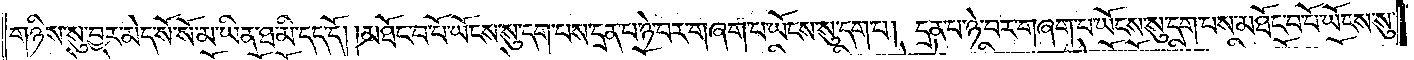གཉིས་སུ་བྱར་མེད་སོ་སོ་མ་ཡིན་ཐ་མི་དད་དོ། །མཐོང་བ་པོ་ཡོངས་སུ་དག་པས་དྲན་པ་ཉེ་བར་གཞག་པ་ཡོངས་སུ་དག་པ། དྲན་པ་ཉེ་བར་གཞག་པ་ཡོངས་སུ་དག་པས་མཐོང་བ་པོ་ཡོངས་སུ་
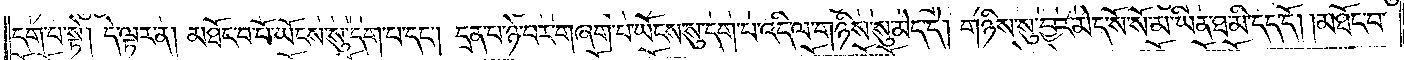དག་པ་སྟེ། དེ་ལྟར་ན། མཐོང་བ་པོ་ཡོངས་སུ་དག་པ་དང༌། དྲན་པ་ཉེ་བར་གཞག་པ་ཡོངས་སུ་དག་པ་འདི་ལ་གཉིས་སུ་མེད་དེ། གཉིས་སུ་བྱར་མེད་སོ་སོ་མ་ཡིན་ཐ་མི་དད་དོ། །མཐོང་བ་
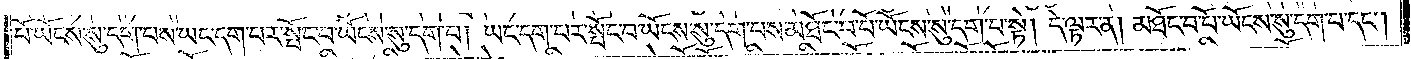པོ་ཡོངས་སུ་དག་པས་ཡང་དག་པར་སྤོང་བ་ཡོངས་སུ་དག་པ། ཡང་དག་པར་སྤོང་བ་ཡོངས་སུ་དག་པས་མཐོང་བ་པོ་ཡོངས་སུ་དག་པ་སྟེ། དེ་ལྟར་ན། མཐོང་བ་པོ་ཡོངས་སུ་དག་པ་དང༌།
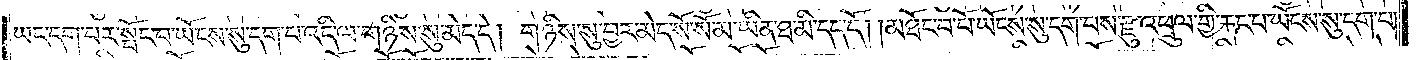ཡང་དག་པར་སྤོང་བ་ཡོངས་སུ་དག་པ་འདི་ལ་གཉིས་སུ་མེད་དེ། གཉིས་སུ་བྱར་མེད་སོ་སོ་མ་ཡིན་ཐ་མི་དད་དོ། །མཐོང་བ་པོ་ཡོངས་སུ་དག་པས་རྫུ་འཕྲུལ་གྱི་རྐང་པ་ཡོངས་སུ་དག་པ།
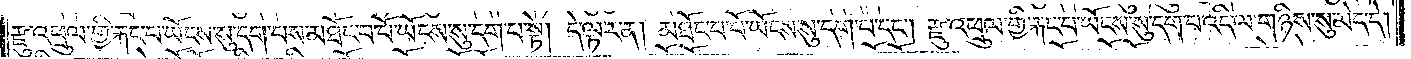རྫུ་འཕྲུལ་གྱི་རྐང་པ་ཡོངས་སུ་དག་པས་མཐོང་བ་པོ་ཡོངས་སུ་དག་པ་སྟེ། དེ་ལྟར་ན། མཐོང་བ་པོ་ཡོངས་སུ་དག་པ་དང༌། རྫུ་འཕྲུལ་གྱི་རྐང་པ་ཡོངས་སུ་དག་པ་འདི་ལ་གཉིས་སུ་མེད་དེ།
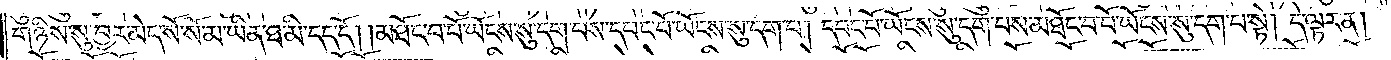གཉིས་སུ་བྱར་མེད་སོ་སོ་མ་ཡིན་ཐ་མི་དད་དོ། །མཐོང་བ་པོ་ཡོངས་སུ་དག་པས་དབང་པོ་ཡོངས་སུ་དག་པ། དབང་པོ་ཡོངས་སུ་དག་པས་མཐོང་བ་པོ་ཡོངས་སུ་དག་པ་སྟེ། དེ་ལྟར་ན།
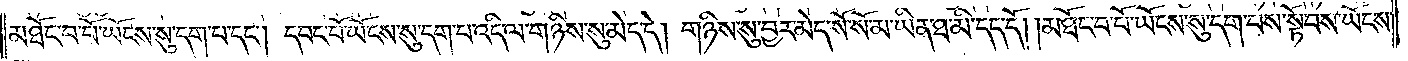མཐོང་བ་པོ་ཡོངས་སུ་དག་པ་དང༌། དབང་པོ་ཡོངས་སུ་དག་པ་འདི་ལ་གཉིས་སུ་མེད་དེ། གཉིས་སུ་བྱར་མེད་སོ་སོ་མ་ཡིན་ཐ་མི་དད་དོ། །མཐོང་བ་པོ་ཡོངས་སུ་དག་པས་སྟོབས་ཡོངས་
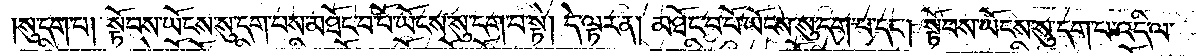སུ་དག་པ། སྟོབས་ཡོངས་སུ་དག་པས་མཐོང་བ་པོ་ཡོངས་སུ་དག་པ་སྟེ། དེ་ལྟར་ན། མཐོང་བ་པོ་ཡོངས་སུ་དག་པ་དང༌། སྟོབས་ཡོངས་སུ་དག་པ་འདི་ལ་
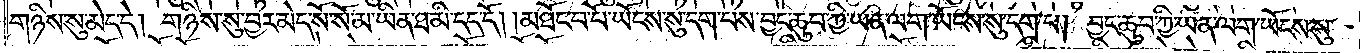གཉིས་སུ་མེད་དེ། གཉིས་སུ་བྱར་མེད་སོ་སོ་མ་ཡིན་ཐ་མི་དད་དོ། །མཐོང་བ་པོ་ཡོངས་སུ་དག་པས་བྱང་ཆུབ་ཀྱི་ཡན་ལག་ཡོངས་སུ་དག་པ། བྱང་ཆུབ་ཀྱི་ཡན་ལག་ཡོངས་སུ་
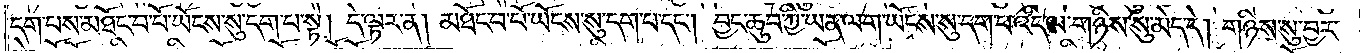དག་པས་མཐོང་བ་པོ་ཡོངས་སུ་དག་པ་སྟེ། དེ་ལྟར་ན། མཐོང་བ་པོ་ཡོང་སུ་དག་པ་དང༌། བྱང་ཆུབ་ཀྱི་ཡན་ལག་ཡོངས་སུ་དག་པ་འདི་ལ་གཉིས་སུ་མེད་དེ། གཉིས་སུ་བྱར་
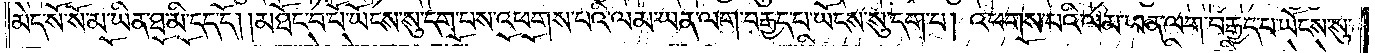མེད་སོ་སོ་མ་ཡིན་ཐ་མི་དད་དོ། །མཐོང་བ་པོ་ཡོངས་སུ་དག་པས་འཕགས་པའི་ལམ་ཡན་ལག་བརྒྱད་པ་ཡོངས་སུ་དག་པ། འཕགས་པའི་ལམ་ཡན་ལག་བརྒྱད་པ་ཡོངས་སུ་
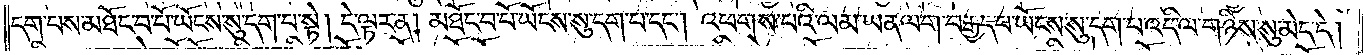དག་པས་མཐོང་བ་པོ་ཡོངས་སུ་དག་པ་སྟེ། དེ་ལྟར་ན། མཐོང་བ་པོ་ཡོངས་སུ་དག་པ་དང༌། འཕགས་པའི་ལམ་ཡན་ལག་བརྒྱད་པ་ཡོངས་སུ་དག་པ་འདི་ལ་གཉིས་སུ་མེད་དེ།
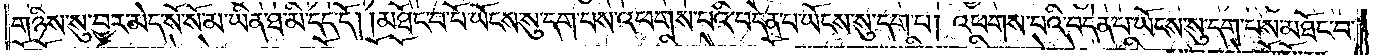གཉིས་སུ་བྱར་མེད་སོ་སོ་མ་ཡིན་ཐ་མི་དད་དོ། །མཐོང་བ་པོ་ཡོངས་སུ་དག་པས་འཕགས་པའི་བདེན་པ་ཡོངས་སུ་དག་པ། འཕགས་པའི་བདེན་པ་ཡོངས་སུ་དག་པས་མཐོང་བ་
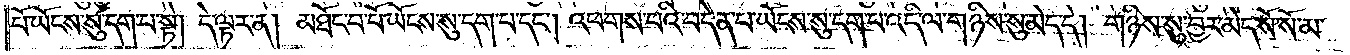པོ་ཡོངས་སུ་དག་པ་སྟེ། དེ་ལྟར་ན། མཐོང་བ་པོ་ཡོངས་སུ་དག་པ་དང༌། འཕགས་པའི་བདེན་པ་ཡོངས་སུ་དག་པ་འདི་ལ་གཉིས་སུ་མེད་དེ། གཉིས་སུ་བྱར་མེད་སོ་སོ་མ་
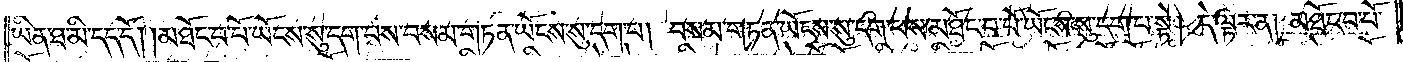ཡིན་ཐ་མི་དད་དོ། །མཐོང་བ་པོ་ཡོངས་སུ་དག་པས་བསམ་གཏན་ཡོངས་སུ་དག་པ། བསམ་གཏན་ཡོངས་སུ་དག་པས་མཐོང་བ་པོ་ཡོངས་སུ་དག་པ་སྟེ། དེ་ལྟར་ན། མཐོང་བ་པོ་
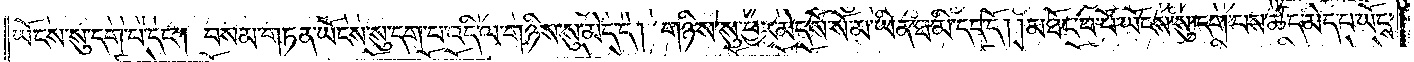ཡོངས་སུ་དག་པ་དང༌། བསམ་གཏན་ཡོངས་སུ་དག་པ་འདི་ལ་གཉིས་སུ་མེད་དེ། གཉིས་སུ་བྱར་མེད་སོ་སོ་མ་ཡིན་ཐ་མི་དད་དོ། །མཐོང་བ་པོ་ཡོངས་སུ་དག་པས་ཚད་མེད་པ་ཡོངས་
